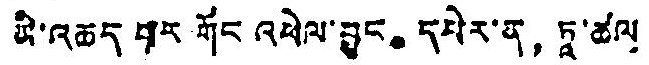མི་འཆད པར གོང འཕེལ་བྱུང。 དཔེར་ན， ཏཱ་ཚལ
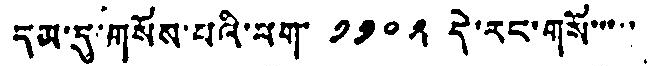དམ་དུ་གསོས་པའི་ལག་ ༡༡༠༢ དེ་རང་གསོ་་་་་
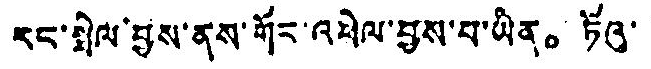རང་སྤེལ་བྱས་ནས་གོང་འཕེལ་བྱས་པ་ཡིན。 ཏོའུ་
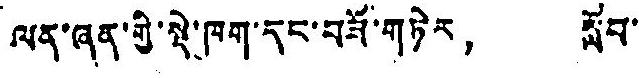ལན་ཞན་གྱི་སྡེ་ཁག་དང་བཟོ་གཏེར， སློབ་
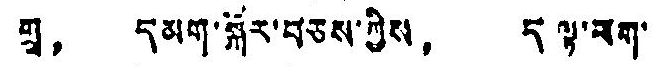གྲྭ， དམག་སྐོར་བཅས་ཀྱིས， ད ལྟ་ཕག་
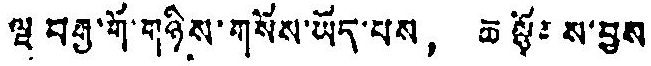ལྔ བརྒྱ་གོ་གཉིས་གསོས་ཡོད་པས， ཆ ལྕོམས་བྱས་
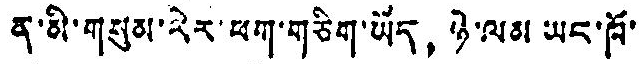ན་མི་གསུམ་རེར་ཕག་གཅིག་ཡོད， ཉེ་ལམ ཡང་ཁོ་
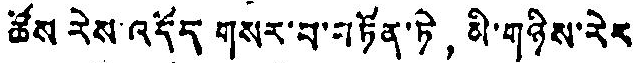ཚོས རེས་འདོད གསར་བ་བཏོན་ཏེ， མི་གཉིས་རེར
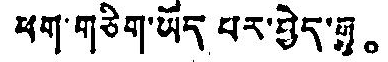ཕག་གཅིག་ཡོད པར་བྱེད་རྒྱུ。
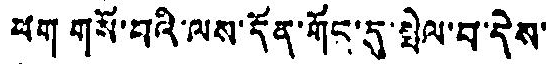ཕག གསོ་བའི་ལས་དོན་གོང་དུ་སྤེལ་བ་དེས་
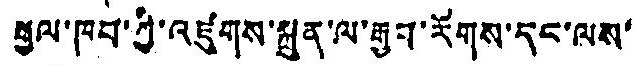རྒྱལ་ཁབ་ཀྱི་འཛུགས་སྐྲུན་ལ་རྒྱབ་རོགས་དང་ལས་
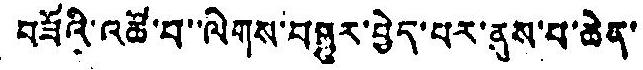བཟོའི་འཚོ་བ་་ལེགས་བསྟྱུར་བྱེད་པར་ནུས་པ་ཆེན་
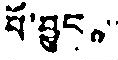པོ་བྱུང。
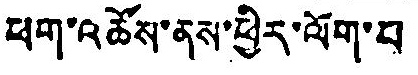ཕག་འཚོས་ནས་ཕྱིར་ལོག་པ
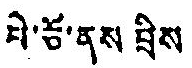པེ་ཅོ་ནས བྲིས
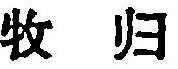牧 归
